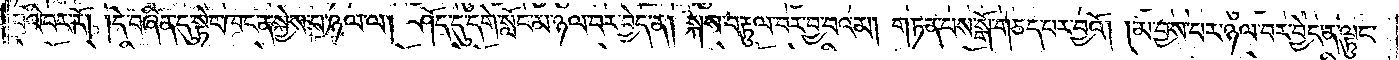བའི་བར་རོ། །དེ་བཞིན་དུ་སྟེང་ཁང་ན་སྐྱེས་པ་ཉལ་ལ། ཤོད་དུ་དགེ་སློང་མ་ཉལ་བར་བྱེད་ན། སྐས་བརྟུལ་བར་བྱ་བའམ། གཏན་པས་སྒོ་གཅད་པར་བྱའོ། །མ་བྱས་པར་ཉལ་བར་བྱེད་ན་ལྟུང་
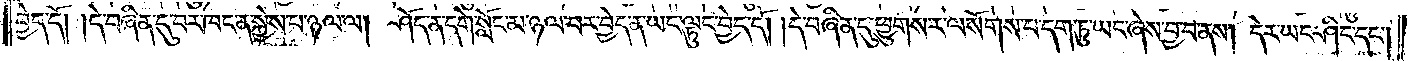བྱེད་དོ། །དེ་བཞིན་དུ་བར་ཁང་ན་སྐྱེས་པ་ཉལ་ལ། ཤོད་ན་དགེ་སློང་མ་ཉལ་བར་བྱེད་ན་ཡང་ལྟུང་བྱེད་དོ། །དེ་བཞིན་དུ་ཕྱུགས་རལ་སོགས་པ་དག་ཏུ་ཡང་ཞེས་བྱ་བ་ནས། དེར་ཡང་ཤིང་དང༌།
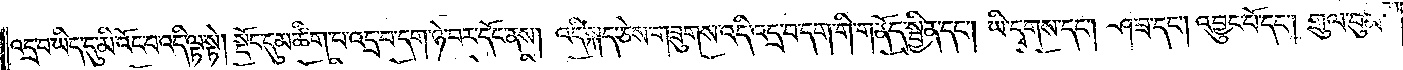འདྲ་བ་ཡིད་དུ་མི་འོང་བ་འདི་ལྟ་སྟེ། སྡོང་དུམ་ཚིག་པ་འདྲ་བ་དག་ཉེ་བར་དོང་ནས། འདི་སྐད་ཅེས་གཟུགས་འདི་འདྲ་བ་དག་གི་གནོད་སྦྱིན་དང༌། ཡི་དྭགས་དང༌། ཤ་ཟ་དང༌། འབྱུང་པོ་དང༌། གྲུལ་བུམ་
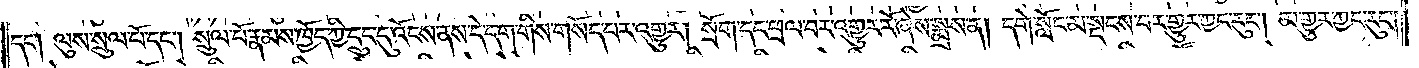དང༌། ལུས་སྲུལ་པོ་དང༌། སྲུལ་པོ་རྣམས་ཁྱོད་ཀྱི་དྲུང་དུ་འོངས་ནས་དེ་དག་གིས་གསོད་པར་འགྱུར། སྲོག་དང་ཕྲལ་བར་འགྱུར་རོ་ཞེས་སྨྲས་ན། དགེ་སློང་མ་སྡངས་པར་གྱུར་ཀྱང་རུང༌། མ་གྱུར་ཀྱང་རུང༌།
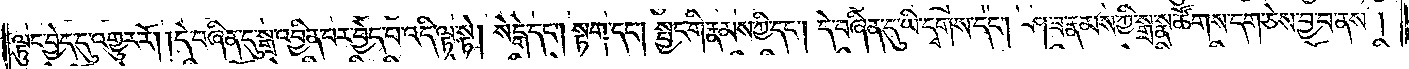ལྟུང་བྱེད་དུ་འགྱུར་རོ། །དེ་བཞིན་དུ་སྒྲ་འབྱིན་པར་བྱེད་པ་འདི་ལྟ་སྟེ། སེངྒེ་དང༌། སྟག་དང༌། སྤྱང་གི་རྣམས་ཀྱི་དང༌། དེ་བཞིན་དུ་ཡི་དྭགས་དང༌། ཤ་ཟ་རྣམས་ཀྱི་སྒྲ་སྣ་ཚོགས་དག་ཅེས་བྱ་བ་ནས།
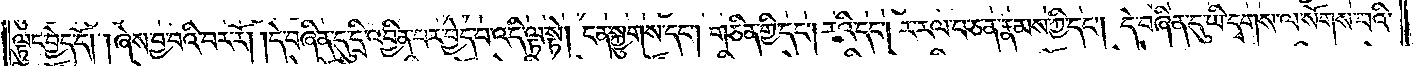ལྟུང་བྱེད་དོ། །ཞེས་བྱ་བའི་བར་རོ། །དེ་བཞིན་དུ་དྲི་འབྱིན་པར་བྱེད་པ་འདི་ལྟ་སྟེ། ངན་སྐྱུགས་དང༌། གཅིན་གྱི་དང༌། རའི་དང༌། ར་རལ་པ་ཅན་རྣམས་ཀྱི་དང༌། དེ་བཞིན་དུ་ཡི་དྭགས་ལ་སོགས་པའི་
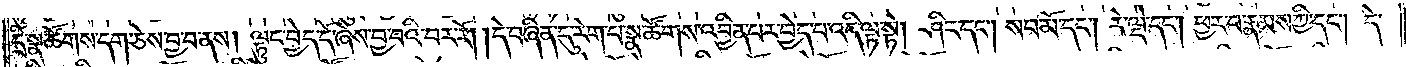དྲི་སྣ་ཚོགས་དག་ཅེས་བྱ་བ་ནས། ལྟུང་བྱེད་དོ་ཞེས་བྱ་བའི་བར་རོ། །དེ་བཞིན་དུ་རེག་པ་སྣ་ཚོགས་འབྱིན་པར་བྱེད་པ་འདི་ལྟ་སྟེ། ཤིང་དང༌། སབ་མོ་དང༌། རེ་ལྡེ་དང༌། ཕྱར་བ་རྣམས་ཀྱི་དང༌། དེ་
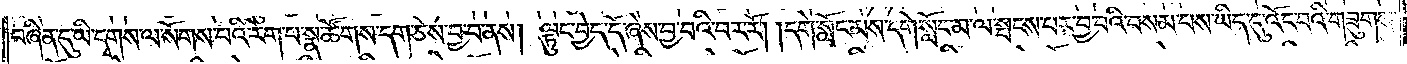བཞིན་དུ་ཡི་དྭགས་ལ་སོགས་པའི་རེག་པ་སྣ་ཚོགས་དག་ཅེས་བྱ་བ་ནས། ལྟུང་བྱེད་དོ་ཞེས་བྱ་བའི་བར་རོ། །དགེ་སློང་མས་དགེ་སློང་མ་ལ་སྤངས་པར་བྱ་བའི་བསམ་པས་ཡིད་དུ་འོང་བའི་གཟུགས་
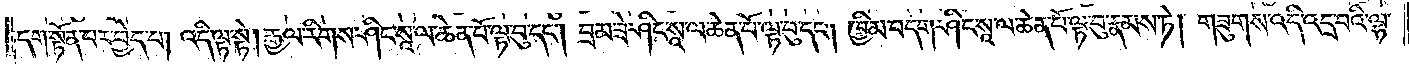དག་སྟོན་པར་བྱེད་པ། འདི་ལྟ་སྟེ། རྒྱལ་རིགས་ཤིང་སཱ་ལ་ཆེན་པོ་ལྟ་བུ་དང༌། བྲམ་ཟེ་ཤིང་སཱ་ལ་ཆེན་པོ་ལྟ་བུ་དང༌། ཁྱིམ་བདག་ཤིང་སཱ་ལ་ཆེན་པོ་ལྟ་བུ་རྣམས་ཏེ། གཟུགས་འདི་འདྲ་བའི་ལྷ་
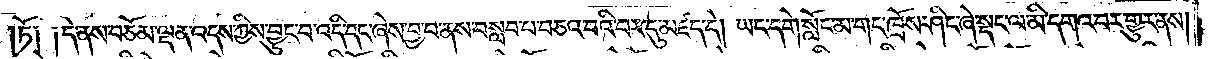ཏོ༑ ༑དེ་ནས་བཅོམ་ལྡན་འདས་ཀྱིས་བྱུང་བ་འདི་དང་ཞེས་བྱ་བ་ནས་བསླབ་པ་བཅའ་བའི་བར་དུ་མཛད་དེ། ཡང་དགེ་སློང་མ་གང་ཁྲོས་ཤིང་ཞེ་སྡང་ལ་མི་དགའ་བར་གྱུར་ནས།
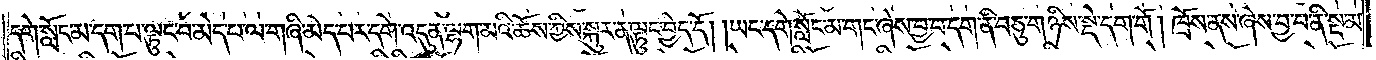དགེ་སློང་མ་དག་པ་ལྟུང་བ་མེད་པ་ལ་གཞི་མེད་པར་དགེ་འདུན་ལྷག་མའི་ཆོས་ཀྱིས་སྐུར་ན་ལྟུང་བྱེད་དོ། །ཡང་དགེ་སློང་མ་གང་ཞེས་བྱ་བ་དག་ནི་བཅུ་གཉིས་སྡེ་དག་གོ། ཁྲོས་ནས་ཞེས་བྱ་བ་ནི་སྔ་མ་
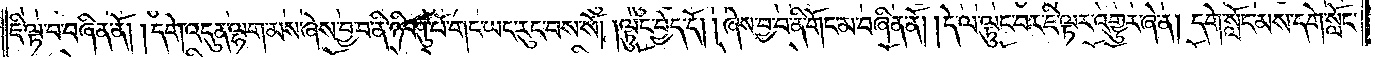ཇི་ལྟ་བ་བཞིན་ནོ། །དགེ་འདུན་ལྷག་མས་ཞེས་བྱ་བ་ནི་ཉི་ཤུ་པོ་གང་ཡང་རུང་བས་སོ། །ལྟུང་བྱེད་དོ། །ཞེས་བྱ་བ་ནི་གོང་མ་བཞིན་ནོ། །དེ་ལ་ལྟུང་བར་ཇི་ལྟར་འགྱུར་ཞེ་ན། དགེ་སློང་མས་དགེ་སློང་
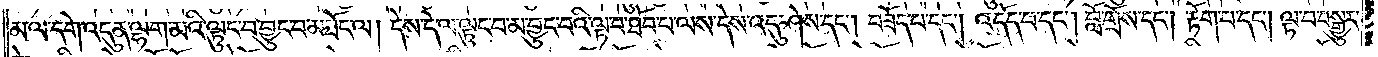མ་ལ་དགེ་འདུན་ལྷག་མའི་ལྟུང་བ་བྱུང་བ་མཐོང་ལ། དེས་དེ་ལ་ལྟུང་བ་མ་བྱུང་བའི་ལྟ་བ་ཐོབ་པ་ལས་དེས་འདུ་ཤེས་དང༌། བཟོད་པ་དང༌། འདོད་པ་དང༌། བློ་གྲོས་དང༌། རྟོག་པ་དང༌། ལྟ་བ་བསྒྱུར་
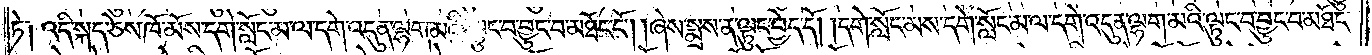ཏེ༑ འདི་སྐད་ཅེས་ཁོ་མོས་དགེ་སློང་མ་ལ་དགེ་འདུན་ལྷག་མའི་ལྟུང་བ་བྱུང་བ་མཐོང་ངོ༌། །ཞེས་སྨྲས་ན་ལྟུང་བྱེད་དོ། །དགེ་སློང་མས་དགེ་སློང་མ་ལ་དགེ་འདུན་ལྷག་མའི་ལྟུང་བ་བྱུང་བ་མཐོང་
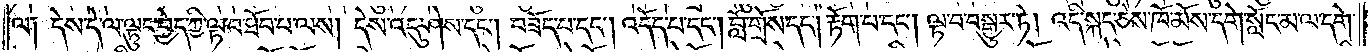ལ༑ དེས་དེ་ལ་ལྟུང་བྱེད་ཀྱི་ལྟ་བ་ཐོབ་པ་ལས། དེས་འདུ་ཤེས་དང༌། བཟོད་པ་དང༌། འདོད་པ་དང༌། བློ་གྲོས་དང༌། རྟོག་པ་དང༌། ལྟ་བ་བསྒྱུར་ཏེ། འདི་སྐད་ཅེས་ཁོ་མོས་དགེ་སློང་མ་ལ་དགེ་
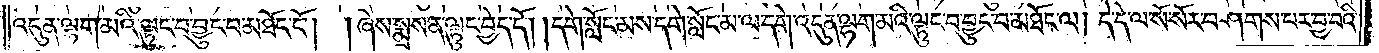འདུན་ལྷག་མའི་ལྟུང་བ་བྱུང་བ་མཐོང་ངོ༌། །ཞེས་སྨྲས་ན་ལྟུང་བྱེད་དོ། །དགེ་སློང་མས་དགེ་སློང་མ་ལ་དགེ་འདུན་ལྷག་མའི་ལྟུང་བ་བྱུང་བ་མཐོང་ལ། དེ་དེ་ལ་སོ་སོར་བཤགས་པར་བྱ་བའི་
